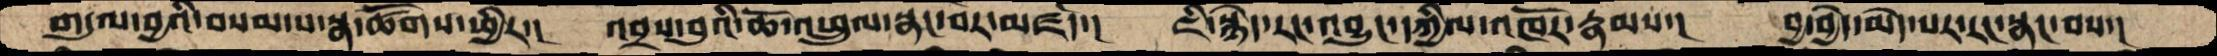གདུལ་བྱའི་བསམ་པ་སྣ་ཚོགས་ཕྱིར་།   འབྲས་བུའི་ཆོ་འཕྲུལ་སྣང་བར་མཛད་།   ཇི་སྙེད་རང་འབྱུང་དཀྱིལ་འཁོར་རྣམས་།    བྱ་བྱེད་མེད་པར་རང་སྣང་བས་།
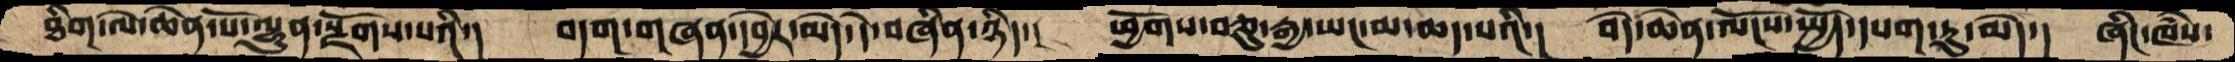ཐིག་ལེ་ཆེན་པོ་ལྷུན་སྫོགས་པའི་།   བདག་གཞན་དབྱེར་མེད་དེ་བཞིན་ཉིད་།  ཕྱོགས་བཅུ་རྒྱ་ཡང་མ་ཆད་པའི་།  བདེ་ཆེན་ལོངས་སྤྱོད་དཔག་ཏུ་མེད་།  ཞིང་ཁཾས་
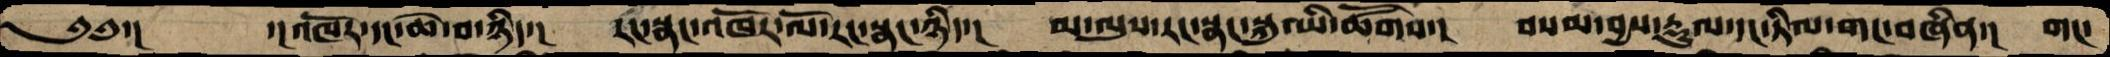༄༅་།      ་།འཁོར་དང་ཆེ་བ་ཉིད་།  རང་སྣང་འཁོར་ལོ་རང་སྣང་ཉིད་།   མ་ལུས་རང་སྣང་སྐུ་ཡི་ཚོགས་།   བསམ་བྱས་རྡུལ་དང་ཏིལ་གང་བཞིན་།   གང་
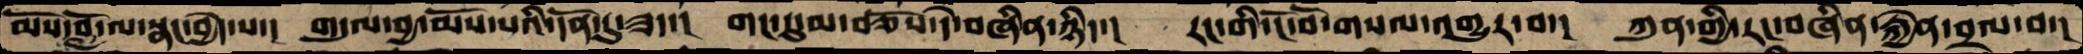མོས་བློ་ལ་སྣང་བྱེད་པ་།  གདུལ་བྱ་མོས་པའི་དོན་དུ་ཟད་།  གང་དུ་མ་བཅོས་དེ་བཞིན་ཉིད་།  རང་གི་ངོ་བོ་གསལ་འགྱུར་བ་།  ཀུན་གྱི་རང་བཞིན་རྐྱེན་བྲལ་བ་།
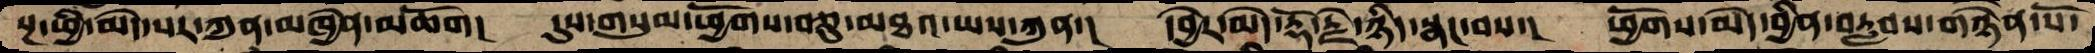སྔ་ཕྱི་མེད་པར་ཀུན་མཁྱེན་མཆོག།  དུས་གསུམ་ཕྱོགས་བཅུ་མཐའ་ཡས་ཀུན་། དབྱེར་མེད་རྡོ་རྗེ་ཉིད་སྣང་བས་།  ཕྱོགས་མེད་བྱིན་བརླབས་གཉེན་པོ་
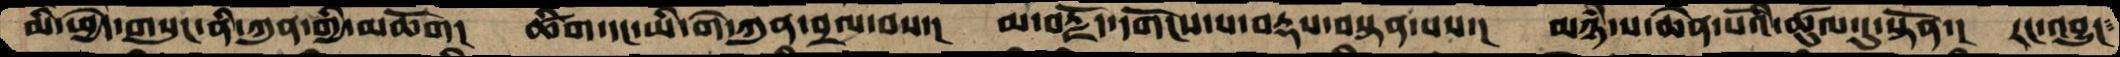མི་ཕྱེད་གསུང་ནི་ཀུན་གྱི་མཆོག།  ཚིག་དང་ཡི་གེ་ཀུན་བྲལ་བས་།  མ་བརྗོད་དགོངས་པ་བརྡས་བསྟན་པས་།  མཉཾ་པ་ཆེན་པོའི་ཚུལ་དུ་སྟོན་།  རང་འབྱུང་
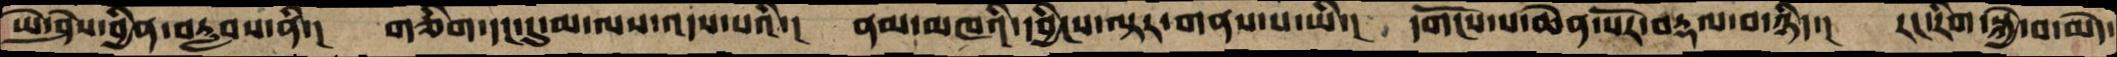ཡེ་ཤེས་བྱིན་བརླབས་ནི་།  གཅིག་དང་དུ་མ་ལས་འདས་པའི་།  ནམ་མཁའི་དབྱིངས་ལྟར་གནས་པ་ཡི་།  དགོངས་པ་ཆེན་པོར་བརྡལ་བ་ཉིད་།  རང་རིག་སྐྱེ་བ་མེད་
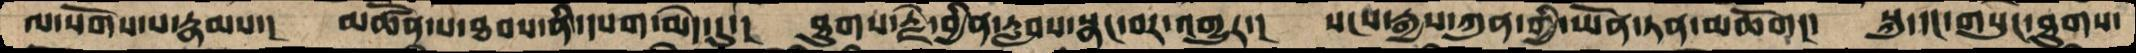ལ་སོགས་པ་རྣམས་།  མཚོན་པ་ཐབས་ནི་དཔག་མེད་དུ་།  ཐུགས་རྗེ་བྱིན་རླབས་སྣང་བར་འགྱུར་།  སངས་རྒྱས་ཀུན་གྱི་ཡོན་ཏན་མཆོག།་  སྐུ་དང་གསུང་ཐུགས་
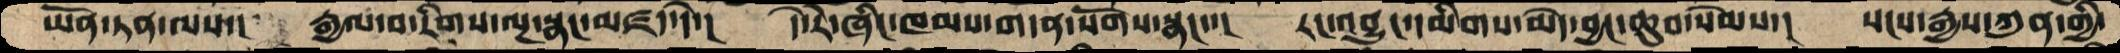ཡོན་ཏན་ལས་།  རྒྱལ་བ་རིགས་ལྔ་སྣང་མཛད་དེ་།  དེ་རེ་ཞིང་ཁམས་གདན་སོགས་སྣང་་།  རང་འབྱུང་དམིགས་མེད་བྱང་ཆུབ་སེམས་།  སངས་རྒྱས་ཀུན་གྱི་
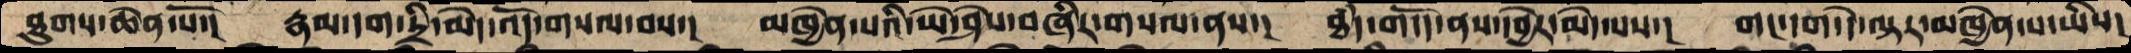ཐུགས་ཆེན་པོ་། རྣམ་དག་དྲི་མེད་འོད་གསལ་བས་།  མཁྱེན་པའི་ཡེ་ཤེས་བཞིར་གསལ་ནས་།  ཐཾད་གདོད་ནས་དབྱེར་མེད་པས་།  གང་དག་དེ་ལྟར་མཁྱེན་པ་ཡིས།
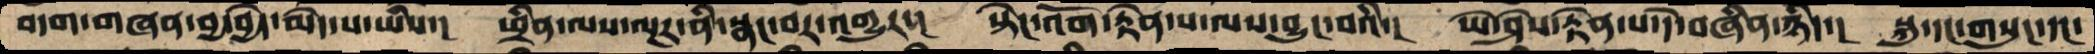བདག་གཞན་བྱ་བྱེད་མེད་པ་ཡིས་།  ཕྲིན་ལས་ལྔར་ནི་སྣང་བར་འགྱུར་།  སྟེང་འོག་རྟེན་པ་ལས་བྱུང་བའི་།  ཡེ་ཤེས་རྟེན་པ་དེ་བཞིན་ཉིད་།  སྐུ་དང་གསུང་དང་
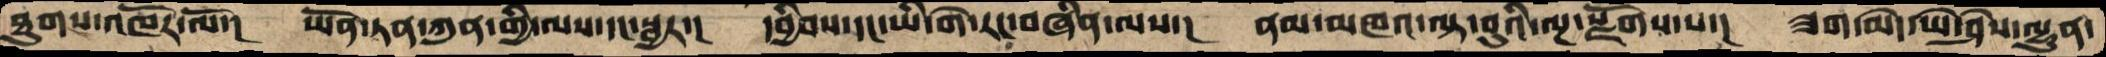ཐུགས་འཁོར་ལོ་།    ཡོན་ཏན་ཀུན་གྱི་ལས་དང་སྦྱར་།  དབྱིབས་དང་ཡི་གེ་རང་བཞིན་ལས་།   ནམ་མཁའ་ལྟ་བུའི་ལྔ་སྫོགས་པ་།  ཟག་མེད་ཡེ་ཤེས་ལྷུན་
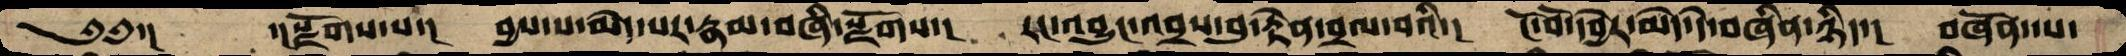༄༅་།    ་།སྫོགས་པ་།    བྱས་པ་མེད་པར་རྣམ་བཞི་སྫོགས་།  རང་འབྱུང་འབྲས་བུ་རྟེན་བྲལ་བའི་།  ངོ་བོ་དབྱེར་མེད་དེ་བཞིན་ཉིད་།  བཞོན་་པ་
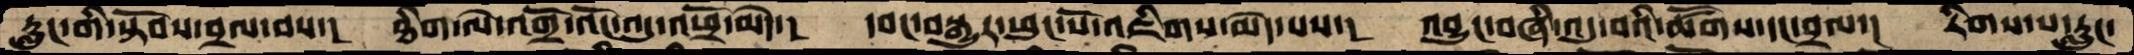རླུང་གི་སྟོབས་བྲལ་བས་།  ཐིག་ལེ་འགྲོ་འོང་འདུ་འཕྲོ་མེད་།  དབང་བསྒྱུར་ཕུང་པོ་འཇིགས་མེད་པས་།  འབྱུང་བཞི་འདུ་བའི་ཚོགས་དང་བྲལ་།  རིགས་པ་རླུང་
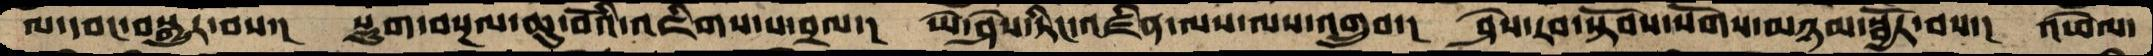ལ་དབང་བསྒྱུར་བས་།   སྡུག་བསྔལ་ཆུ་བོའི་འཇིགས་པ་བྲལ་།   ཡེ་ཤེས་ཏིང་འཛིན་ལས་ལས་འགྲུབ་།  ཤེས་རབ་སྟོབས་སོགས་མཉམ་སྦྱོར་བས་།  འཕེལ་
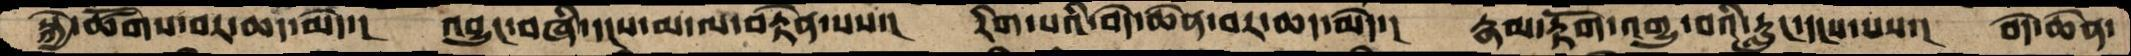སྐྱེ་ཚོགས་བར་ཆད་མདེ་།  འབྱུང་བཞི་དངས་མ་ལ་བརྟེན་པས་།    རིག་པའི་བདེ་ཆེན་བར་ཆད་མེད་།   རྣམ་རྟོག་འགྱུ་བའི་རླུང་དངས་པས་།  བདེ་ཆེན་
